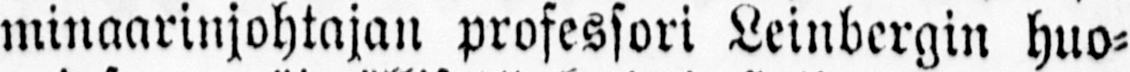minaarinjohtajan professori Leinbergin huo-
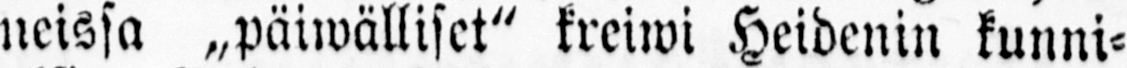neissa „päiwälliset" kreiwi Heidenin kunni-
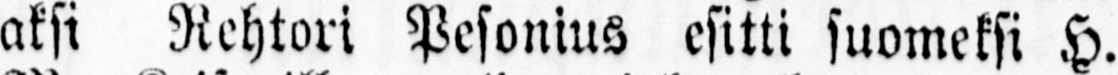aksi Rehtori Pesonius esitti suomeksi H.
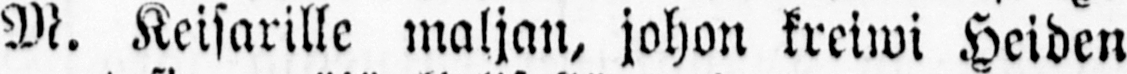M. Keisarille maljan, johon kreiwi Heiden
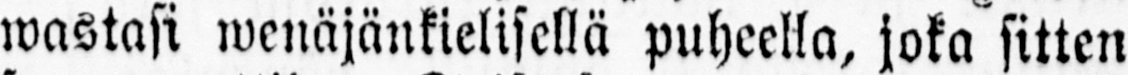wastasi wenäjänkielisellä puheella, joka sitten
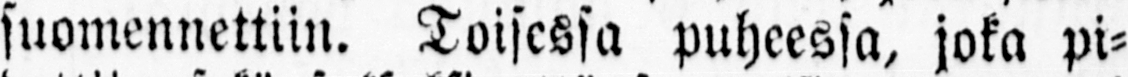suomennettiin. Toisessa puheessa, joka pi-
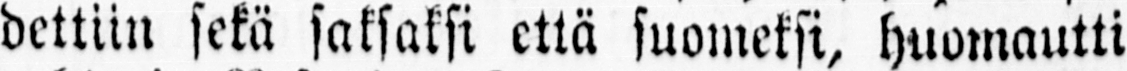dettiin sekä saksaksi että suomeksi, huomautti
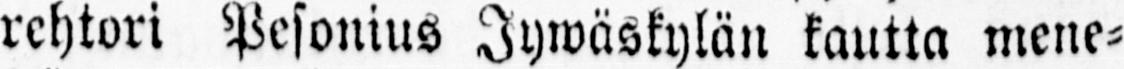rehtori Pesonius Jywäskylän kautta mene-
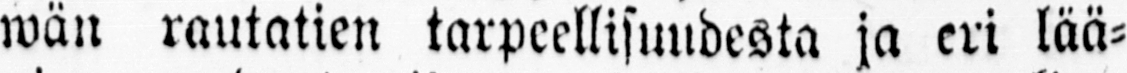wän rautatien tarpeellisuudesta ja eri lää-
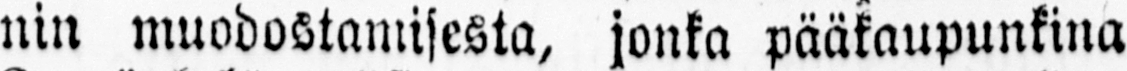nin muodostamisesta, jonka pääkaupunkina
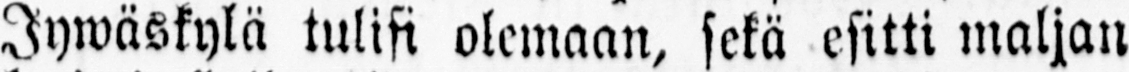Jywäskylä tulisi olemaan, sekä esitti maljan
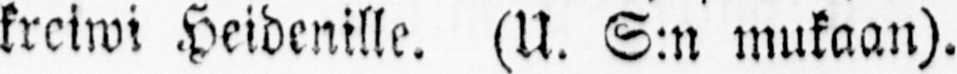kreiwi Heidenille. (U. S:n mukaan).
